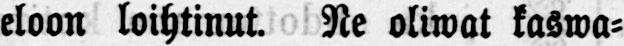eloon loihtinut. Ne oliwat kaswa-
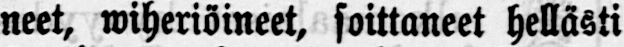neet, wiheriöineet, soittaneet hellästi
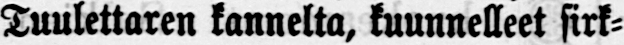Tuulettaren kannelta, kuunnelleet sirk-
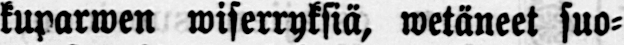kuparwen wiserryksiä, vetäneet suo-
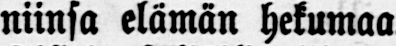niinsa elämän hekumaa. . . . . .
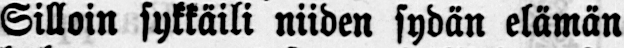Silloin sykkäili niiden sydän elämän
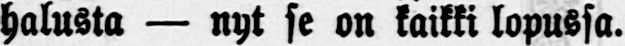halusta — nyt se on kaikki lopussa.
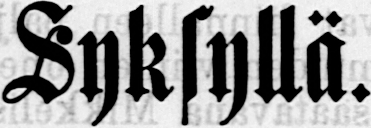Syksyllä.
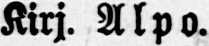Kirj. Alpo.
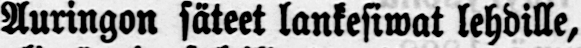Auringon säteet lankesiwat lehdille,
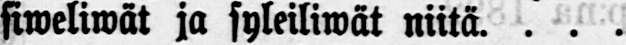siweliwät ja syleiliwät niitä. . . .
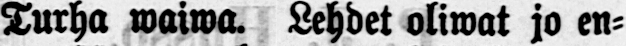Turha waiwa. Lehdet oliwat jo en-
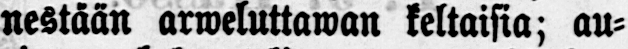nestään arweluttawan keltaisia; au-
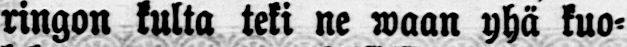ringon kulta teki ne waan yhä kuo-
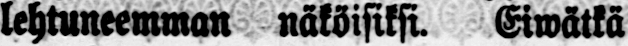lehtuneemman näköisiksi. Eiwätkä
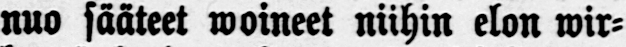nuo sääteet woineet niihin elon wir-
